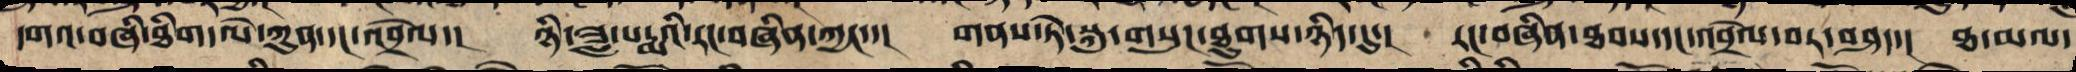དགའ་བཞི་ཐིག་ལེ་ཀུན་དང་འབྲེལ་། ཉི་ཟླ་པདྨའི་རང་བཞིན་ཀྱང་་། གནས་ཏེ་སྐུ་གསུང་ཐུགས་ཉིད་དུ་། རང་བཞིན་ཐབས་དང་འབྲེལ་བར་བཤད་། ཐ་མལ་
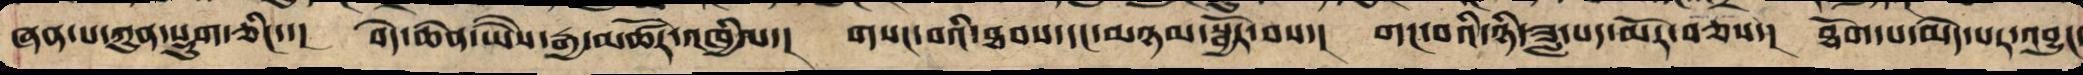ཞན་པ་ཀུན་སྡུག་ཅིང་་། བདེ་ཆེན་ཡཻས་རྒྱ་མཚོར་འཁྱིལ་། གསང་བའི་ཐབས་དང་མཉམ་སྦྱོར་བས་། གང་བའི་ཉི་ཟླ་པད་མོར་བཅས་། ཐོག་པ་མེད་པར་འབྱུང
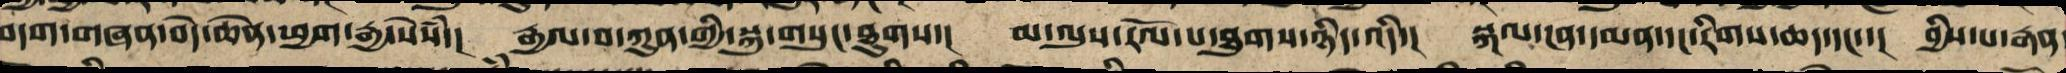བདག་གཞན་བདེ་ཆེན་ཕྱག་རྒྱ་སེཾས་། རྒྱལ་བ་ཀུན་གྱི་སྐུ་གསུང་ཐུགས་། མ་ལུས་རོལ་པ་ཐུགས་ཉིད་འདི་། སྐལ་ངན་དམན་དང་རིགས་ཆད་དང་་། བྱིས་པ་རྒན
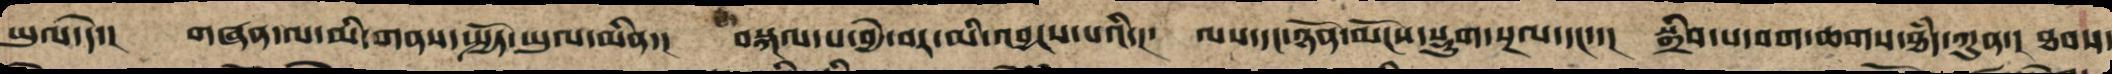ཡུལ་དེ་། གཞན་ལ་མི་གནས་སྤྱོད་ཡུལ་མིན་། བསྐལ་པ་བྱེ་བར་མི་འབྱངས་པའི་། ལས་དང་ཉོན་མོངས་སྡུག་སྔལ་དང་་། སྒྲིབ་པ་བག་ཆགས་ཐཾད་ཀུན་། ཐབས་
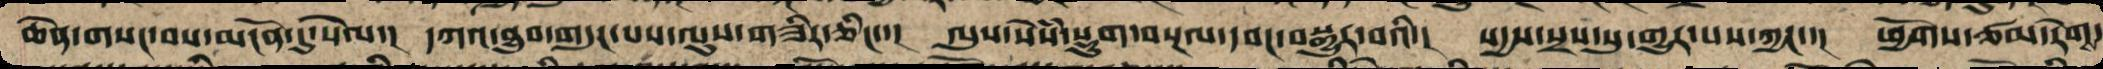ཆེན་གསང་བས་མངོན་དུ་སེལ་། དཀའ་ཐུབ་གདུང་པས་ལུས་གཟིར་ཅིང་་། ལུས་སེཾས་སྡུག་བསྔལ་དབང་བསྒྱུར་བའི་། སདྱས་སྲས་སུ་གྱུར་པས་ཀྱང་་། ཕྱོགས་ཙམ་རེག་
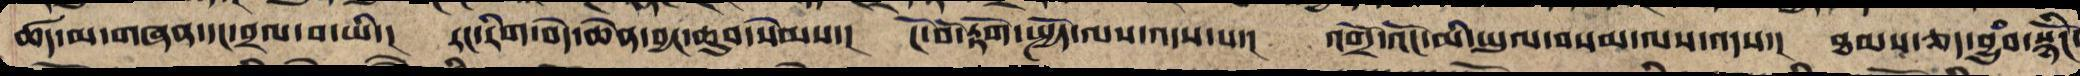ཚད་མ་གཞན་དང་བྲལ་བ་ཡི་། རང་རིག་བདེ་ཆེན་བྱང་ཆུབ་སེམས་། ངོ་བོ་རྟོག་སྤྱོད་ལས་འདས་པ་། འགྲོ་འོང་མི་ཡུལ་བསམ་ལས་འདས་། ཐམས་ཅད་བྱུཾབ་སྙིངོ་
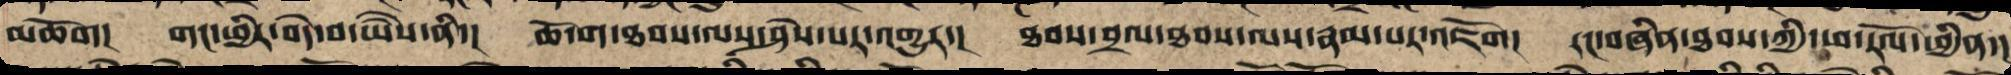མཆོག། གང་ཕྱིར་བདེ་བ་ཡཻས་ནི་། ཆོ་ག་ཐབས་ལས་ཤེས་པར་འགྱུར་།  ཐབས་བྲལ་ཐབས་ལས་རྣམ་པར་འཇོག། རང་བཞིན་ཐབས་ཀྱི་ཕ་རོལ་ཕྱིན་།
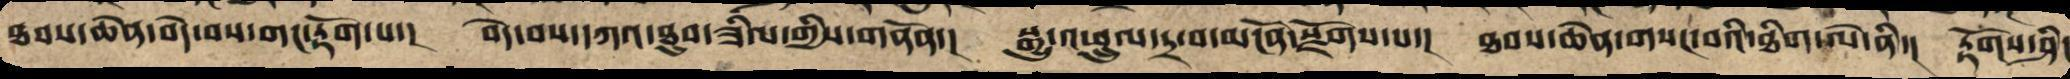ཐབས་ཆེན་བདེ་བས་གང་རྟོག་པ་། བདེ་བས་དཀའ་ཐུབ་ཟིལ་གྱིས་གནོན་། སྒྱུ་འཕྲུལ་དྲ་བ་མངོན་སྫོགས་པ་། ཐབས་ཆེན་གསང་བའི་ཐིག་ལེ་ནི་། རྟོགས་ཤིང
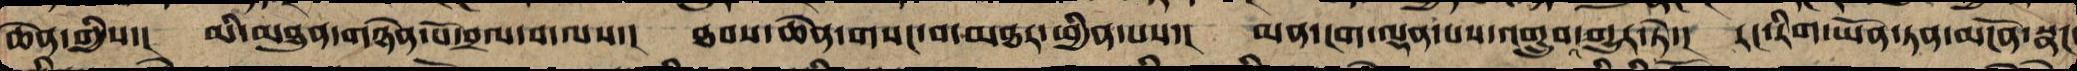ཆེན་གྱིས་། མི་མཐུན་གཉེན་པོ་བྲལ་བ་ལས་། ཐབས་ཆེན་གསང་བ་མཐར་ཕྱིན་པས་། མན་ངག་ལྡན་པས་འགྲུབ་འགྱུར་ཏེ་། རང་རིག་ཡོན་ཏན་མངོན་སྣང་
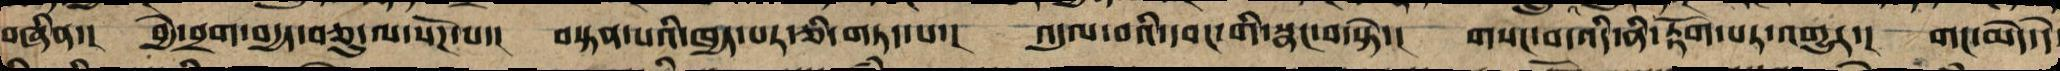བཞིན་། བྱེ་བྲག་བདྱད་ཅུ་ལ་སོགས་པ་། བསྟན་པའི་ཁྱད་པར་ཅི་གཏད་པ་། འདུལ་བའི་དབང་གིས་སྣང་བ་སྟེ་། གསང་བ་འདིས་ནི་རྟོག་པར་འགྱུར་། གང་མེད་དེ་
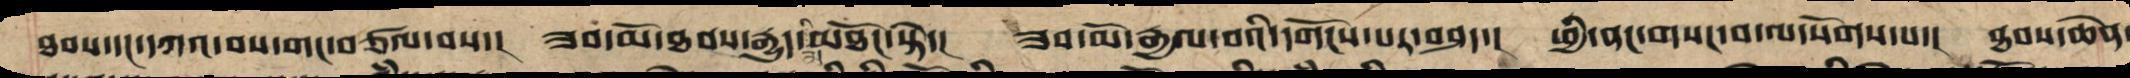ཐབས་དང་དཀའ་བས་གང་བཙལ་བས་། ཟབ་མོ་ཐབས་རྒྱུད་མཐོང་སྟེ་། ཟབ་མོ་རྒྱལ་བའི་དགོངས་པར་བཤད་། ཕྱི་ནང་གསང་བ་ལ་སོགས་པ་། ཐབས་ཆེན་
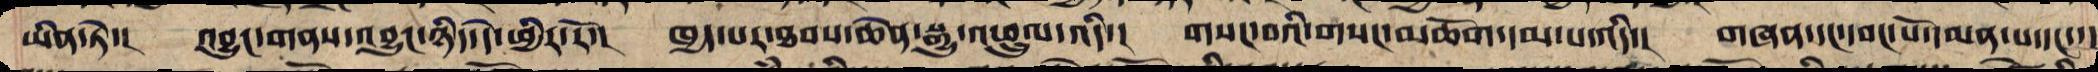ཡིན་ཏེ་། འབྱུང་གནས་འབྱུང་ཉིད་དེ་ཕྱིར་རོ་། ཁྱད་པར་ཐབས་ཆེན་སྒྱུ་འཕྲུལ་འདི་། གསང་བའི་གསང་མཆོག་དམ་པ་འདི་། གཞན་དང་དབང་པོ་དམན་པ་དང་་།
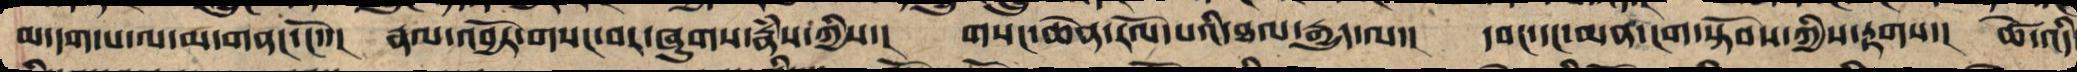མ་དག་པ་ལ་མ་གནང་ངོ་་། རྣལ་འབྱོར་གསང་བར་ཞུགས་རྣཾས་ཀྱིས་། གསང་ཆེན་རོལ་པའི་ཐལ་རྒྱུད་ལ་། དབང་དང་མན་ངག་སྟོབས་ཀྱིས་རྟགས་། ཚེ་འདི་
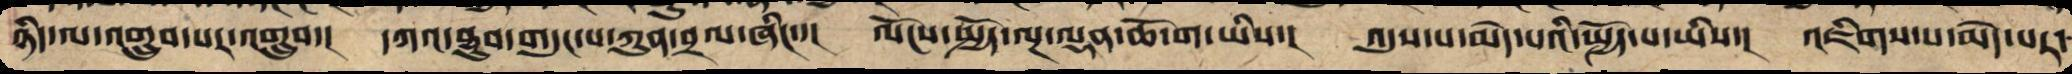ཉིད་ལ་འགྲུབ་པར་འགྲུབ་། དཀའ་ཐུབ་གདུང་པ་ཀུན་བྲལ་ཞིང་་། ལོངས་སྤྱོད་ལྔ་ལྡན་ཆོ་ག་ཡིས་། འདུས་པ་མེད་པའི་སྤྱོད་པ་ཡིས་། འཇིགས་པ་མེད་པར་
